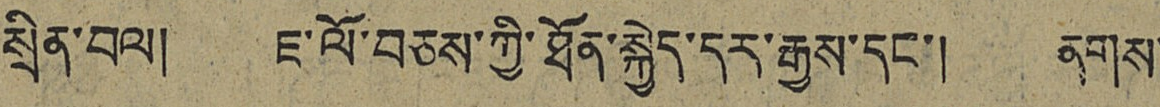སྲིན་བལ། ཇ་ལོ་བཅས་ཀྱི་ཐོན་སྐྱེད་དར་རྒྱས་དང་། ནགས་
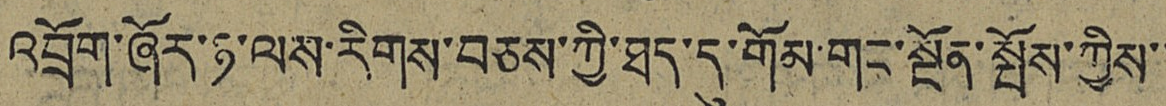འབྲོག་ཞོར་ཉ་ལས་རིགས་བཅས་ཀྱི་ཐད་དུ་གོམ་གང་སྔོན་སྤོས་ཀྱིས་་
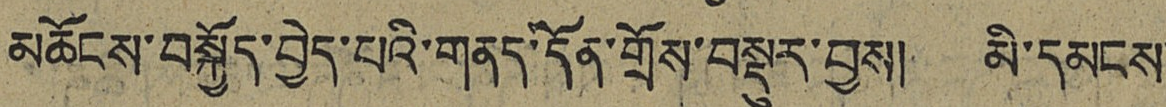མཆོངས་བསྐྱོད་བྱེད་པའི་གནད་དོན་གྲོས་བསྡུར་བྱས། མི་དམངས་
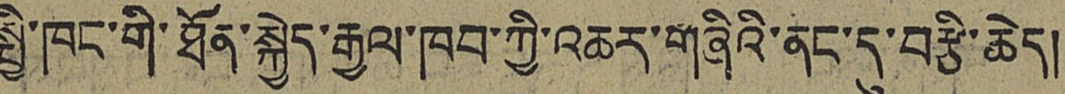སྤྱི་ཁང་གི་ཐོན་སྐྱེད་རྒྱལ་ཁབ་ཀྱི་འཆར་གཞིའི་ནང་དུ་བརྩི་ཆེད།
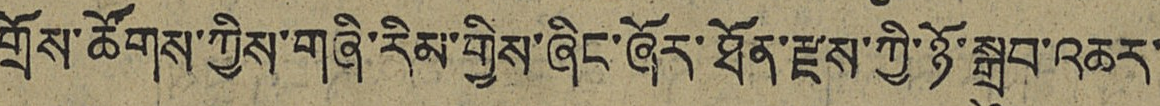གྲོས་ཚོགས་ཀྱིས་གཞི་རིམ་གྱིས་ཞིང་ཞོར་ཐོན་རྫས་ཀྱི་ཉོ་སྒྲུབ་འཆར་
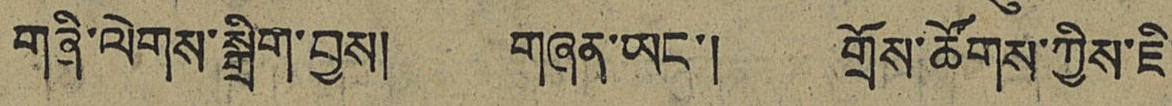གཞི་ལེགས་སྒྲིག་བྱས། གཞན་ཡང་། གྲོས་ཚོགས་ཀྱིས་ཇི་
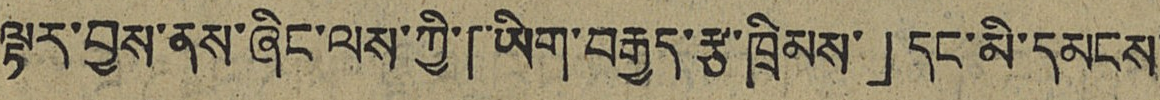ལྟར་བྱས་ནས་ཞིང་ལས་ཀྱི་「ཡིག་བརྒྱད་རྩ་ཁྲིམས་」དང་མི་དམངས་
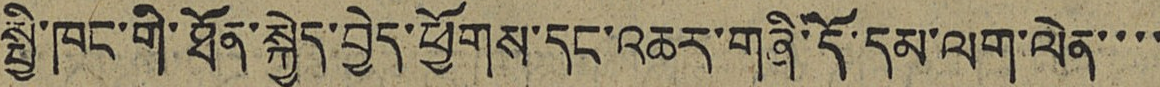སྤྱི་ཁང་གི་ཐོན་སྐྱེད་བྱེད་ཕྱོགས་དང་འཆར་གཞི་དོ་དམ་ལག་ལེན་་་་
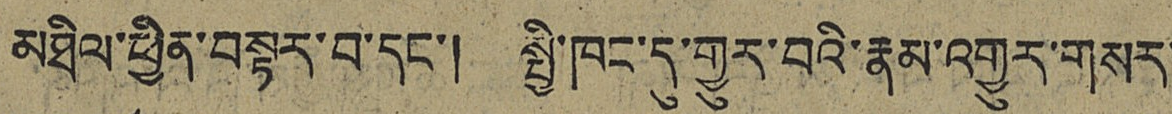མཐིལ་ཕྱིན་བསྟར་བ་དང་། སྤྱི་ཁང་དུ་གྱུར་བའི་རྣམ་འགྱུར་གསར་
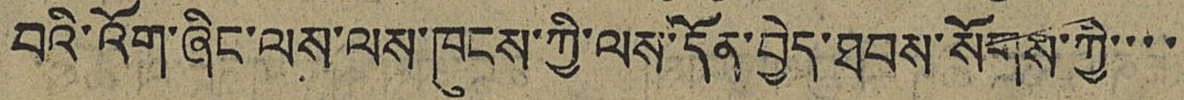བའི་འོག་ཞིང་ལས་ལས་ཁུངས་ཀྱི་ལས་དོན་བྱེད་ཐབས་སོགས་ཀྱི་་་་
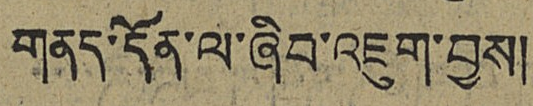གནད་དོན་ལ་ཞིབ་འཇུག་བྱས།
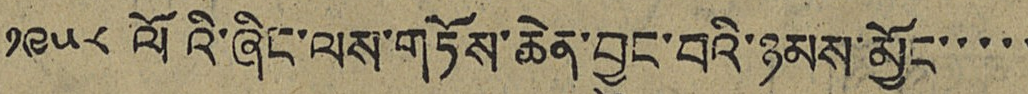༡༩༥༨ ལོའི་ཞིང་ལས་གཏོས་ཆེན་བྱུང་བའི་ཉམས་མྱོང་་་་་
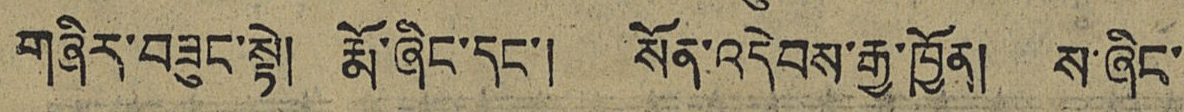གཞིར་བཟུང་སྟེ། རྨོ་ཞིང་དང་། སོན་འདེབས་རྒྱ་ཁྱོན། ས་ཞིང་
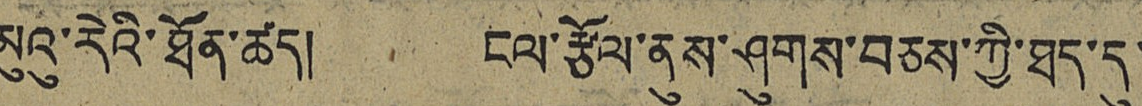མུའུ་རེའི་ཐོན་ཚད། ངལ་རྩོལ་ནུས་ཤུགས་བཅས་ཀྱི་ཐད་དུ་
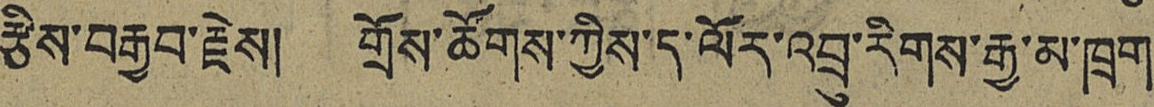རྩིས་བརྒྱབ་རྗེས། གྲོས་ཚོགས་ཀྱིས་ད་ལོར་འབྲུ་རིགས་རྒྱ་མ་ཁྲག་
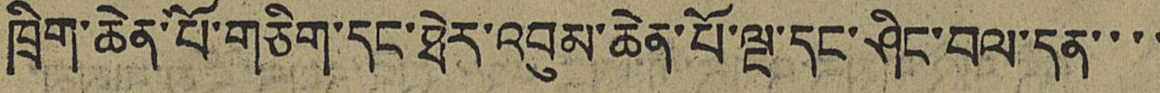ཁྲིག་ཆེན་པོ་གཅིག་དང་ཐེར་འབུམ་ཆེན་པོ་ལྔ་དང་ཤིང་བལ་དན་་་་
